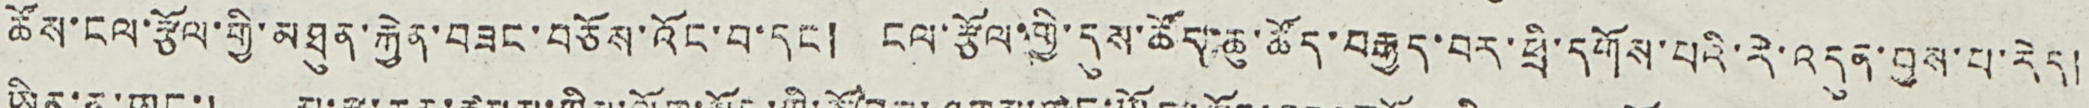ཆོས་ངལ་རྩོལ་གྱི་མཐུན་རྐྱེན་བཟང་བཅོས་འོང་བ་དང ། ངལ་རྩོལ་གྱི་དུས་ཚོད་ཆུ་ཚོད་བརྒྱད་བར་ཕྲི་དགོས་པའི་རེ་འདུན་བྱས་པ་རེད།
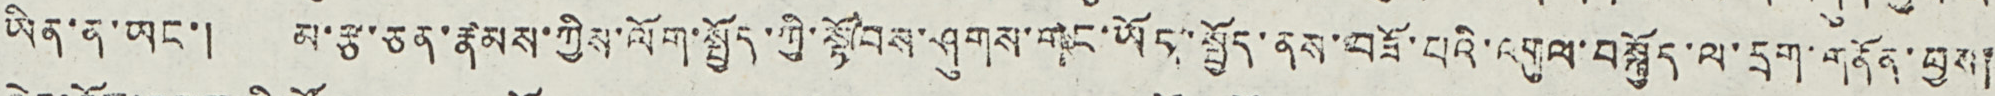ཡིན་ན་ཡང་། མ་རྩ་ཅན་རྣམས་ཀྱིས་ལོག་སྤྱོད་ཀྱི་སྟོབས་ཤུགས་གང་ཡོད་སྤྱོད་ནས་བཟོ་པའི་འགུལ་བསྐྱོད་ལ་དྲག་གནོན་བྱས།
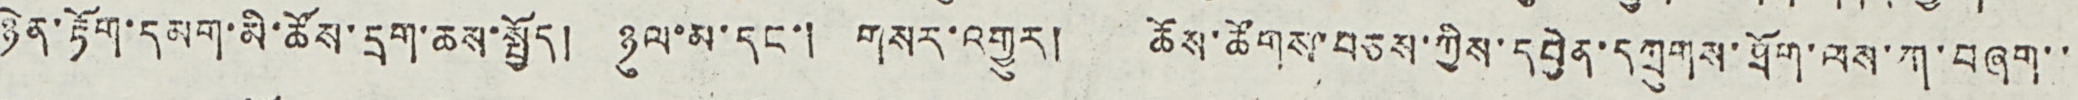ཉེན་རྟོག་དམག་མི་ཚོས་དྲག་ཆས་སྤྱོད། ཉུལ་མ་དང་། གསར་འགྱུར། ཆོས་ཚོགས་བཅས་ཀྱིས་དབྱེན་དཀྲུགས་ཐོག་ལས་ཀ་བཞག་་
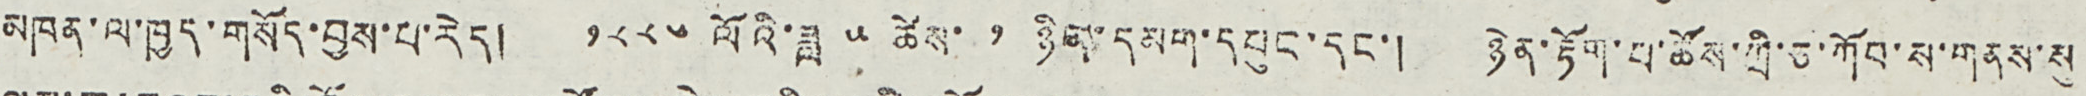མཁན་ལ་ཁྱད་གསོད་བྱས་པ་རེད། ༡༨༨༦ ལོའི་ཟླ ༥ ཚེས་ ༡ ཉིན་དམག་དཔུང་དང་། ཉེན་རྟོག་པ་ཚོས་ཀྲི་ཅ་ཀོབ་ས་གནས་སུ
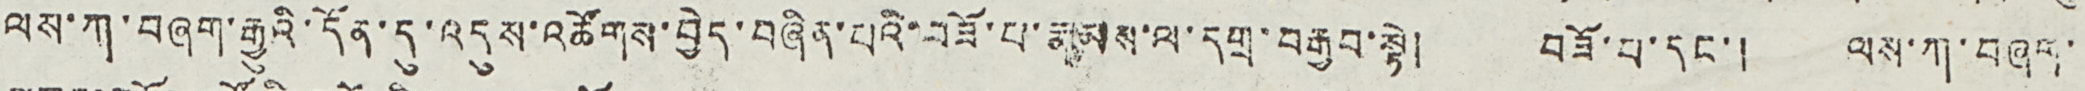ལས་ཀ་བཞག་རྒྱུའི་དོན་དུ་འདུས་འཚོགས་བྱེད་བཞིན་པའི་བཟོ་པ་རྣམས་ལ་དགྲ་བརྒྱབ་སྟེ། བཟོ་པ་དང་། ལས་ཀ་བཞག་
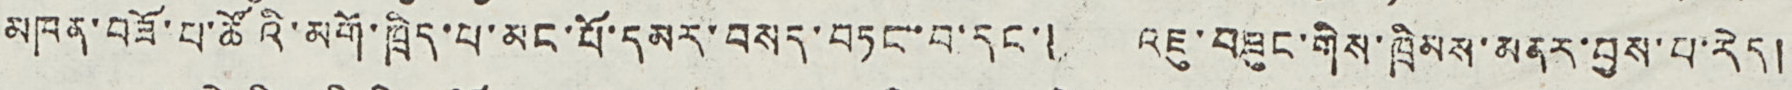མཁན་བཟོ་པ་ཚོའི་མགོ་ཁྲིད་པ་མང་པོ་དམར་བསད་བཏང་བ་དང་། འཇུ་བཟུང་གིས་ཁྲིམས་མནར་བྱས་པ་རེད།
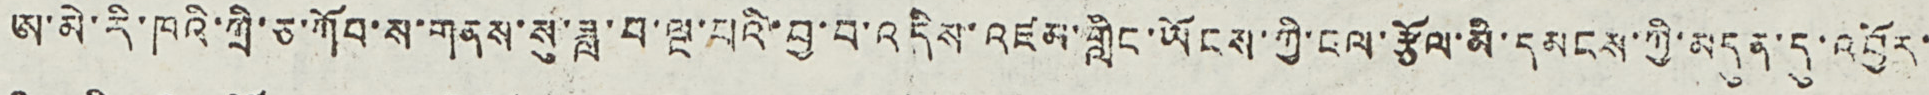ཨ་མེ་རི་ཁའི་ཀྲི་ཅ་ཀོབ་ས་གནས་སུ་ཟླ་བ་ལྔ་པའི་བྱ་བ་འདིས་འཛམ་གླིང་ཡོངས་ཀྱི་ངལ་རྩོལ་མི་དམངས་ཀྱི་མདུན་དུ་འབྱོར་
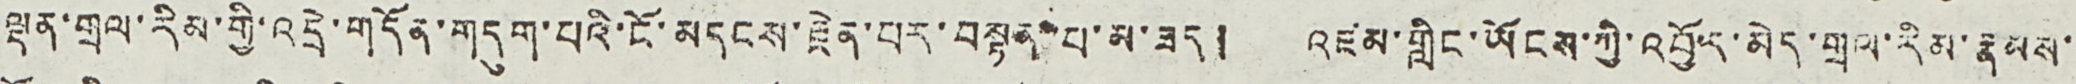ལྡན་གྲལ་རིམ་གྱི་འདྲེ་གདོན་གདུག་པའི་ངོ་མདངས་རྗེན་པར་བསྟན་པ་མ་ཟད། འཛམ་གླིང་ཡོངས་ཀྱི་འབྱོར་མེད་གྲལ་རིམ་རྣམས་
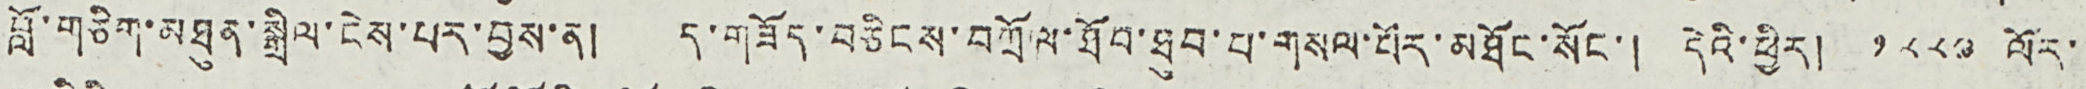བློ་གཅིག་མཐུན་སྒྲིལ་ངེས་པར་བྱས་ན། ད་གཟོད་བཅིངས་བཀྲོལ་ཐོབ་ཐུབ་པ་གསལ་པོར་མཐོང་སོང་། དེའི་ཕྱིར། ༡༨༨༩ ལོར་
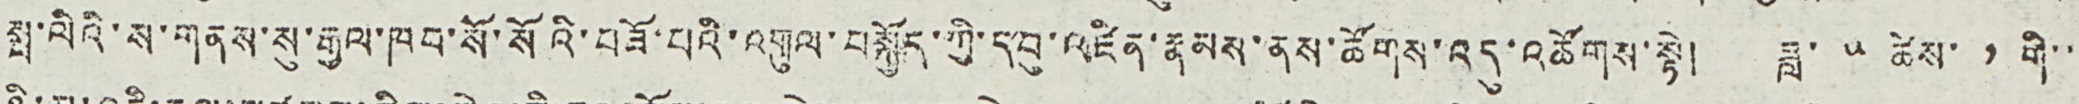སྤ་ལིའི་ས་གནས་སུ་རྒྱལ་ཁབ་སོ་སོའི་བཟོ་པའི་འགུལ་བསྐྱོད་ཀྱི་དབུ་འཛིན་རྣམས་ནས་ཚོགས་འདུ་འཚོགས་སྟེ། ཟླ་ ༥ ཚེས་ ༡ གི་་
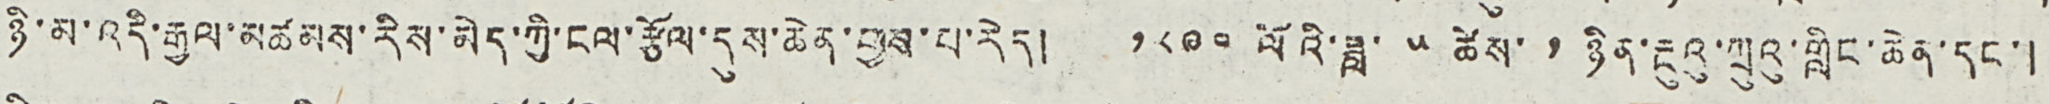ཉི་མ་འདི་རྒྱལ་མཚམས་རིས་མེད་ཀྱི་ངལ་རྩོལ་དུས་ཆེན་བྱས་པ་རེད། ༡༨༩༠ ལོའི་ཟླ་ ༥ ཚེས་ ༡ ཉིན་རྔུའུ་ཀྲུའུ་གླིང་ཆེན་དང་།
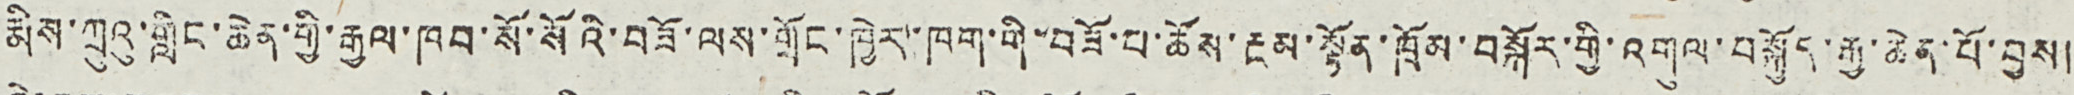རྨིས་ཀྲུའུ་གླིང་ཆེན་གྱི་རྒྱལ་ཁབ་སོ་སོའི་བཟོ་ལས་གྲོང་ཁྱེར་ཁག་གི་བཟོ་པ་ཆོས་རྔམ་སྟོན་ཁྲོམ་བསྐོར་གྱི་འགུལ་བསྐྱོད་རྒྱ་ཆེན་པོ་བྱས།
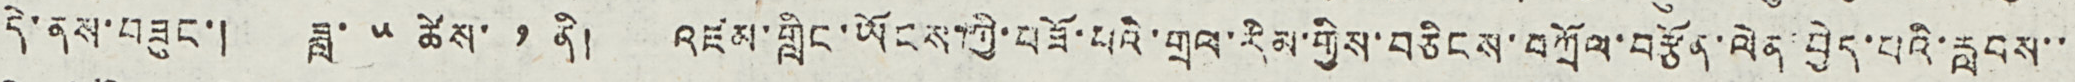དེ་ནས་བཟུང་། ཟླ་ ༥ ཚེས་ ༡ ནི། འཛམ་གླིང་ཡོངས་ཀྱི་བཟོ་པའི་གྲལ་རིམ་གྱིས་བཅིངས་བཀྲོལ་བརྩོན་ལེན་བྱེད་པའི་རླབས་་
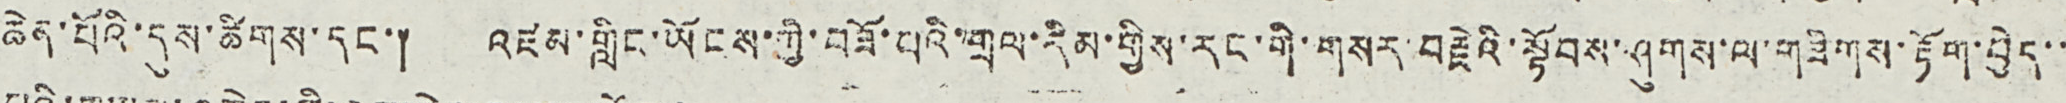ཆེན་པོའི་དུས་ཚིགས་དང་། འཛམ་གླིང་ཡོངས་ཀྱི་བཟོ་པའི་གྲལ་རིམ་གྱིས་རང་གི་གསར་བརྗེའི་སྟོབས་ཤུགས་ལ་གཟིགས་རྟོག་བྱེད་་
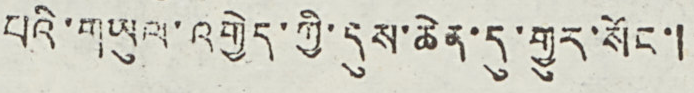པའི་གཡུལ་འགྱེད་ཀྱི་དུས་ཆེན་དུ་གྱུར་སོང་།
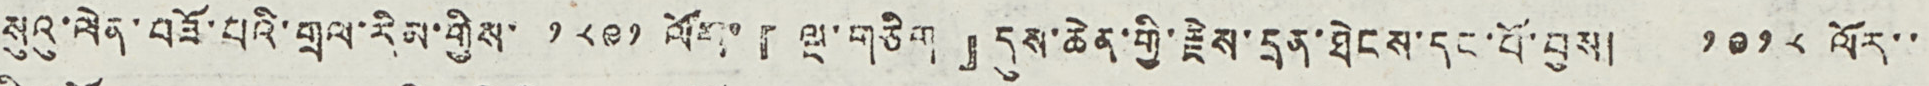སུའུ་ལེན་བཟོ་པའི་གྲལ་རིམ་གྱིས་ ༡༨༩༡ ལོར་『ལྔ་གཅིག』དུས་ཆེན་གྱི་རྗེས་དྲན་ཐེངས་དང་པོ་བྱས། ༡༩༡༨ ལོར་་
